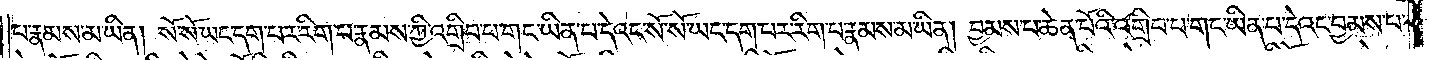པ་རྣམས་མ་ཡིན། སོ་སོ་ཡང་དག་པར་རིག་པ་རྣམས་ཀྱི་འགྲིབ་པ་གང་ཡིན་པ་དེའང་སོ་སོ་ཡང་དག་པར་རིག་པ་རྣམས་མ་ཡིན། བྱམས་པ་ཆེན་པོའི་འགྲིབ་པ་གང་ཡིན་པ་དེའང་བྱམས་པ་
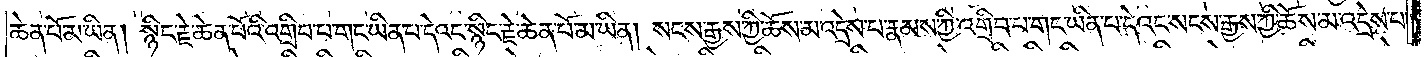ཆེན་པོ་མ་ཡིན། སྙིང་རྗེ་ཆེན་པོའི་འགྲིབ་པ་གང་ཡིན་པ་དེའང་སྙིང་རྗེ་ཆེན་པོ་མ་ཡིན། སངས་རྒྱས་ཀྱི་ཆོས་མ་འདྲེས་པ་རྣམས་ཀྱི་འགྲིབ་པ་གང་ཡིན་པ་དེའང་སངས་རྒྱས་ཀྱི་ཆོས་མ་འདྲེས་པ་
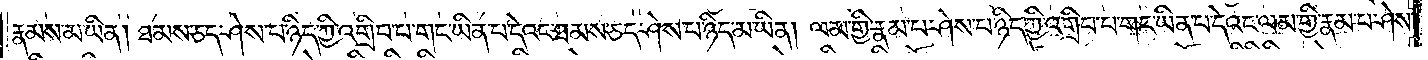རྣམས་མ་ཡིན། ཐམས་ཅད་ཤེས་པ་ཉིད་ཀྱི་འགྲིབ་པ་གང་ཡིན་པ་དེའང་ཐམས་ཅད་ཤེས་པ་ཉིད་མ་ཡིན། ལམ་གྱི་རྣམ་པ་ཤེས་པ་ཉིད་ཀྱི་འགྲིབ་པ་གང་ཡིན་པ་དེའང་ལམ་གྱི་རྣམ་པ་ཤེས་
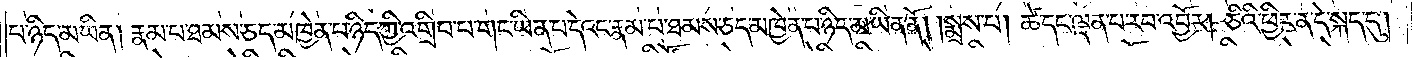པ་ཉིད་མ་ཡིན། རྣམ་པ་ཐམས་ཅད་མཁྱེན་པ་ཉིད་ཀྱི་འགྲིབ་པ་གང་ཡིན་པ་དེའང་རྣམ་པ་ཐམས་ཅད་མཁྱེན་པ་ཉིད་མ་ཡིན་ནོ། །སྨྲས་པ། ཚེ་དང་ལྡན་པ་རབ་འབྱོར། ཅིའི་ཕྱིར་ན་དེ་སྐད་དུ།
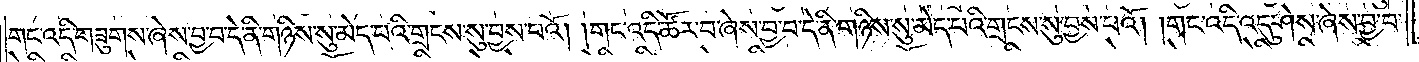གང་འདི་གཟུགས་ཞེས་བྱ་བ་དེ་ནི་གཉིས་སུ་མེད་པའི་གྲངས་སུ་བྱས་པའོ། །གང་འདི་ཚོར་བ་ཞེས་བྱ་བ་དེ་ནི་གཉིས་སུ་མེད་པའི་གྲངས་སུ་བྱས་པའོ། །གང་འདི་འདུ་ཤེས་ཞེས་བྱ་བ་
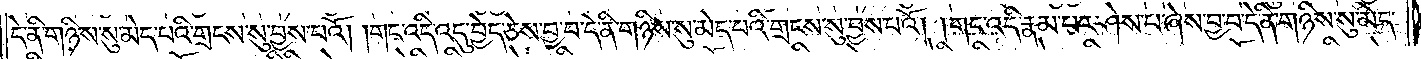དེ་ནི་གཉིས་སུ་མེད་པའི་གྲངས་སུ་བྱས་པའོ། །གང་འདི་འདུ་བྱེད་ཅེས་བྱ་བ་དེ་ནི་གཉིས་སུ་མེད་པའི་གྲངས་སུ་བྱས་པའོ། །གང་འདི་རྣམ་པར་ཤེས་པ་ཞེས་བྱ་བ་དེ་ནི་གཉིས་སུ་མེད་
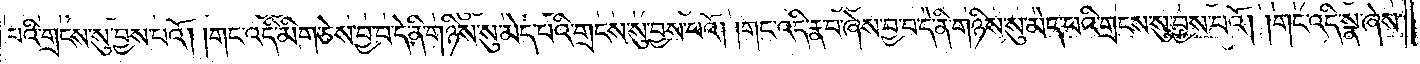པའི་གྲངས་སུ་བྱས་པའོ། །གང་འདི་མིག་ཅེས་བྱ་བ་དེ་ནི་གཉིས་སུ་མེད་པའི་གྲངས་སུ་བྱས་པའོ། །གང་འདི་རྣ་བ་ཞེས་བྱ་བ་དེ་ནི་གཉིས་སུ་མེད་པའི་གྲངས་སུ་བྱས་པའོ། །གང་འདི་སྣ་ཞེས་
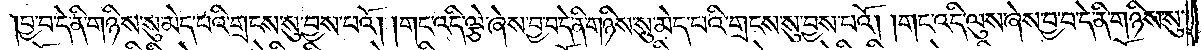བྱ་བ་དེ་ནི་གཉིས་སུ་མེད་པའི་གྲངས་སུ་བྱས་པའོ། །གང་འདི་ལྕེ་ཞེས་བྱ་བ་དེ་ནི་གཉིས་སུ་མེད་པའི་གྲངས་སུ་བྱས་པའོ། །གང་འདི་ལུས་ཞེས་བྱ་བ་དེ་ནི་གཉིས་སུ་
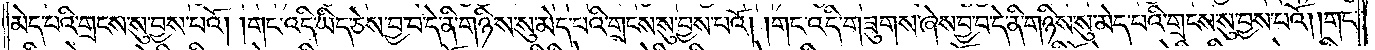མེད་པའི་གྲངས་སུ་བྱས་པའོ། །གང་འདི་ཡིད་ཅེས་བྱ་བ་དེ་ནི་གཉིས་སུ་མེད་པའི་གྲངས་སུ་བྱས་པའོ། །གང་འདི་གཟུགས་ཞེས་བྱ་བ་དེ་ནི་གཉིས་སུ་མེད་པའི་གྲངས་སུ་བྱས་པའོ། །གང་
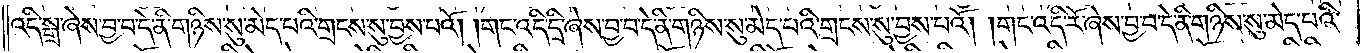འདི་སྒྲ་ཞེས་བྱ་བ་དེ་ནི་གཉིས་སུ་མེད་པའི་གྲངས་སུ་བྱས་པའོ། །གང་འདི་དྲི་ཞེས་བྱ་བ་དེ་ནི་གཉིས་སུ་མེད་པའི་གྲངས་སུ་བྱས་པའོ། །གང་འདི་རོ་ཞེས་བྱ་བ་དེ་ནི་གཉིས་སུ་མེད་པའི་
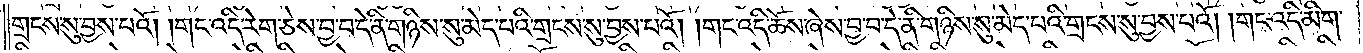གྲངས་སུ་བྱས་པའོ། །གང་འདི་རེག་ཅེས་བྱ་བ་དེ་ནི་གཉིས་སུ་མེད་པའི་གྲངས་སུ་བྱས་པའོ། །གང་འདི་ཆོས་ཞེས་བྱ་བ་དེ་ནི་གཉིས་སུ་མེད་པའི་གྲངས་སུ་བྱས་པའོ། གང་འདི་མིག་
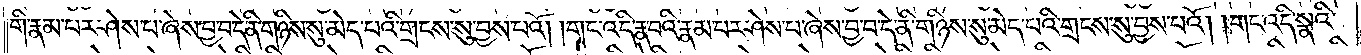གི་རྣམ་པར་ཤེས་པ་ཞེས་བྱ་བ་དེ་ནི་གཉིས་སུ་མེད་པའི་གྲངས་སུ་བྱས་པའོ། །གང་འདི་རྣ་བའི་རྣམ་པར་ཤེས་པ་ཞེས་བྱ་བ་དེ་ནི་གཉིས་སུ་མེད་པའི་གྲངས་སུ་བྱས་པའོ། །གང་འདི་སྣའི་
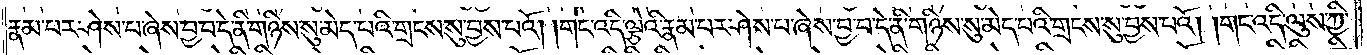རྣམ་པར་ཤེས་པ་ཞེས་བྱ་བ་དེ་ནི་གཉིས་སུ་མེད་པའི་གྲངས་སུ་བྱས་པའོ། །གང་འདི་ལྕེའི་རྣམ་པར་ཤེས་པ་ཞེས་བྱ་བ་དེ་ནི་གཉིས་སུ་མེད་པའི་གྲངས་སུ་བྱས་པའོ། །གང་འདི་ལུས་ཀྱི་
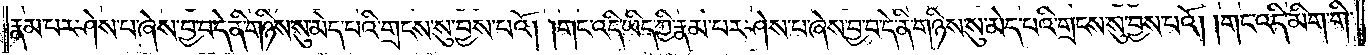རྣམ་པར་ཤེས་པ་ཞེས་བྱ་བ་དེ་ནི་གཉིས་སུ་མེད་པའི་གྲངས་སུ་བྱས་པའོ། །གང་འདི་ཡིད་ཀྱི་རྣམ་པར་ཤེས་པ་ཞེས་བྱ་བ་དེ་ནི་གཉིས་སུ་མེད་པའི་གྲངས་སུ་བྱས་པའོ། །གང་འདི་མིག་གི་
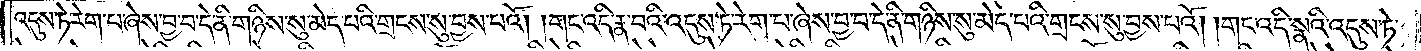འདུས་ཏེ་རེག་པ་ཞེས་བྱ་བ་དེ་ནི་གཉིས་སུ་མེད་པའི་གྲངས་སུ་བྱས་པའོ། །གང་འདི་རྣ་བའི་འདུས་ཏེ་རེག་པ་ཞེས་བྱ་བ་དེ་ནི་གཉིས་སུ་མེད་པའི་གྲངས་སུ་བྱས་པའོ། །གང་འདི་སྣའི་འདུས་ཏེ་
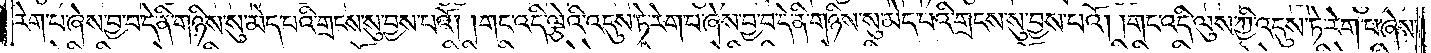རེག་པ་ཞེས་བྱ་བ་དེ་ནི་གཉིས་སུ་མེད་པའི་གྲངས་སུ་བྱས་པའོ། །གང་འདི་ལྕེའི་འདུས་ཏེ་རེག་པ་ཞེས་བྱ་བ་དེ་ནི་གཉིས་སུ་མེད་པའི་གྲངས་སུ་བྱས་པའོ། །གང་འདི་ལུས་ཀྱི་འདུས་ཏེ་རེག་པ་ཞེས་
